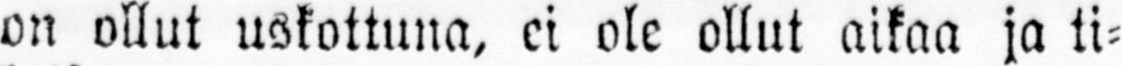on ollut uskottuna, ei ole ollut aikaa ja ti-
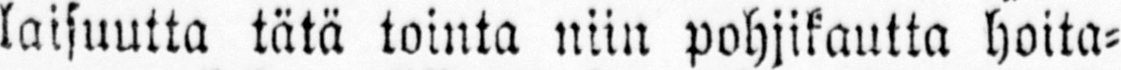laisuutta tätä tointa niin pohjikautta hoita-
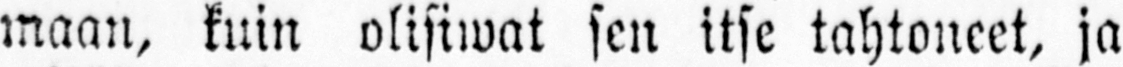maan, kuin olisiwat sen itse tahtoneet, ja
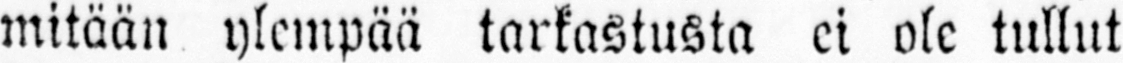mitään ylempää tarkastusta ei ole tullut
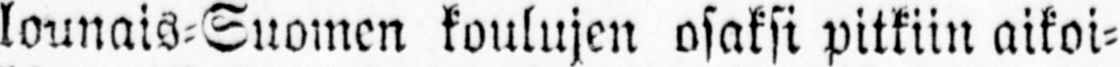lounais-Suomen koulujen osaksi pitkiin aikoi-
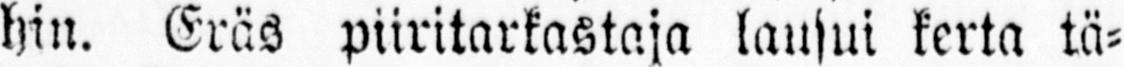hin. Eräs piiritarkastaja lausui kerta tä-
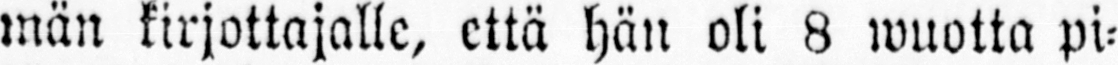män kirjottajalle, että hän oli 8 wuotta pi-
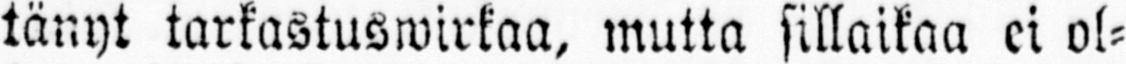tänyt tarkastuswirkaa, mutta sillaikaa ei ol-
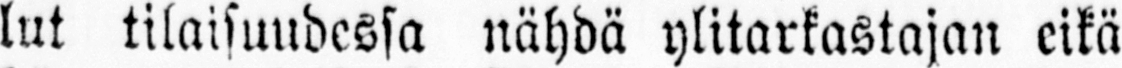lut tilaisuudessa nähdä ylitarkastajan eikä
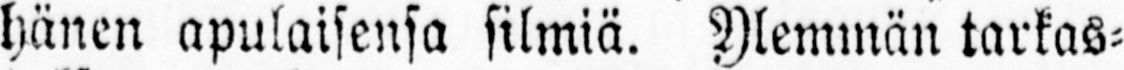hänen apulaisensa silmiä. Ylemmän tarkas-
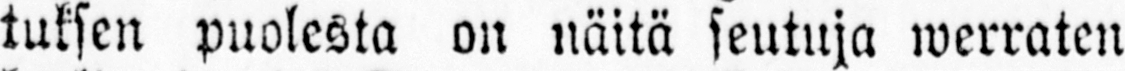tuksen puolesta on näitä seutuja werraten
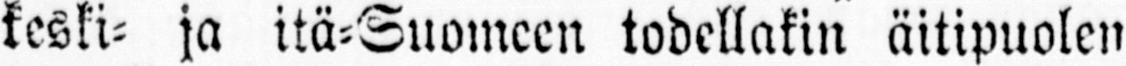keski- ja itä-Suomeen todellakin äitipuolen
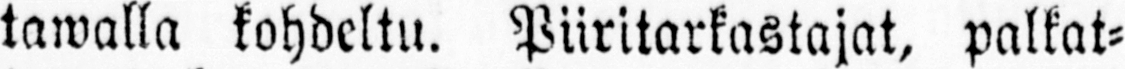tawalla kohdeltu. Piiritarkastajat, palkat-
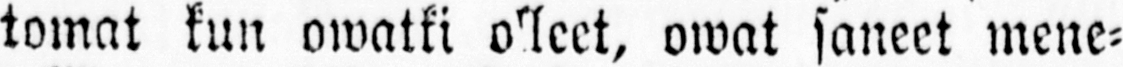tomat kun owatki olleet, owat saneet mene-
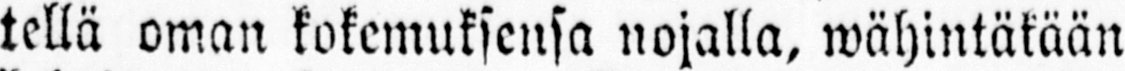tellä oman kokemuksensa nojalla, wähintäkään
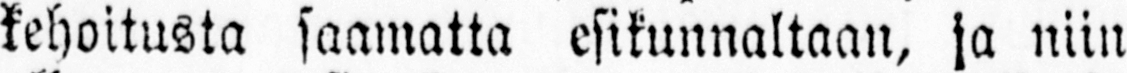kehoitusta saamatta esikunnaltaan, ja niin
